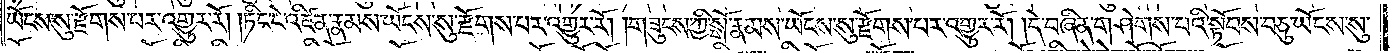ཡོངས་སུ་རྫོགས་པར་འགྱུར་རོ། །ཏིང་ངེ་འཛིན་རྣམས་ཡོངས་སུ་རྫོགས་པར་འགྱུར་རོ། །གཟུངས་ཀྱི་སྒོ་རྣམས་ཡོངས་སུ་རྫོགས་པར་འགྱུར་རོ། །དེ་བཞིན་གཤེགས་པའི་སྟོབས་བཅུ་ཡོངས་སུ་
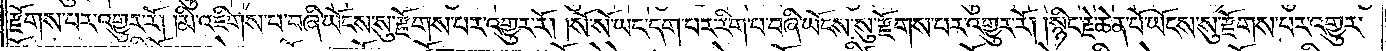རྫོགས་པར་འགྱུར་རོ། །མི་འཇིགས་པ་བཞི་ཡོངས་སུ་རྫོགས་པར་འགྱུར་རོ། །སོ་སོ་ཡང་དག་པར་རིག་པ་བཞི་ཡོངས་སུ་རྫོགས་པར་འགྱུར་རོ། །སྙིང་རྗེ་ཆེན་པོ་ཡོངས་སུ་རྫོགས་པར་འགྱུར་
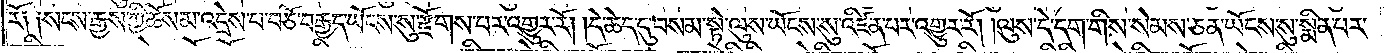རོ། །སངས་རྒྱས་ཀྱི་ཆོས་མ་འདྲེས་པ་བཅོ་བརྒྱད་ཡོངས་སུ་རྫོགས་པར་འགྱུར་རོ། །དེ་ཆེད་དུ་བསམས་ཏེ་ལུས་ཡོངས་སུ་འཛིན་པར་འགྱུར་རོ། །ལུས་དེ་དག་གིས་སེམས་ཅན་ཡོངས་སུ་སྨིན་པར་
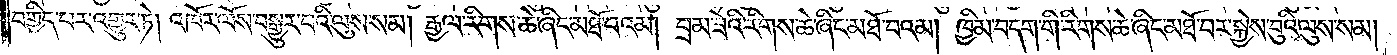བགྱིད་པར་འགྱུར་ཏེ། འཁོར་ལོས་སྒྱུར་བའི་ལུས་སམ། རྒྱལ་རིགས་ཆེ་ཞིང་མཐོ་བའམ། བྲམ་ཟེའི་རིགས་ཆེ་ཞིང་མཐོ་བའམ། ཁྱིམ་བདག་གི་རིགས་ཆེ་ཞིང་མཐོ་བར་སྐྱེས་བུའི་ལུས་སམ།
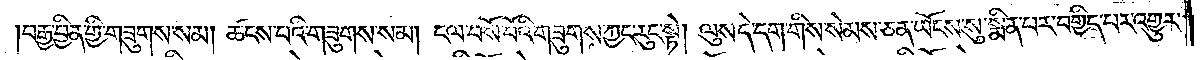བརྒྱ་བྱིན་གྱི་གཟུགས་སམ། ཚངས་པའི་གཟུགས་སམ། ངལ་བསོ་པོའི་གཟུགས་ཀྱང་རུང་སྟེ། ལུས་དེ་དག་གིས་སེམས་ཅན་ཡོངས་སུ་སྨིན་པར་བགྱིད་པར་འགྱུར་
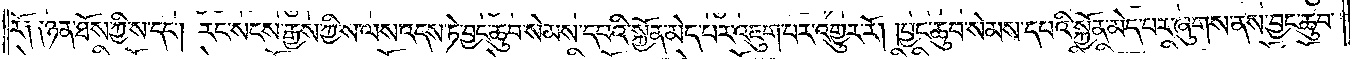རོ༑ ༑ཉན་ཐོས་ཀྱི་ས་དང༌། རང་སངས་རྒྱས་ཀྱི་ས་ལས་འདས་ཏེ་བྱང་ཆུབ་སེམས་དཔའི་སྐྱོན་མེད་པར་འཇུག་པར་འགྱུར་རོ། །བྱང་ཆུབ་སེམས་དཔའི་སྐྱོན་མེད་པར་ཞུགས་ནས་བྱང་ཆུབ་
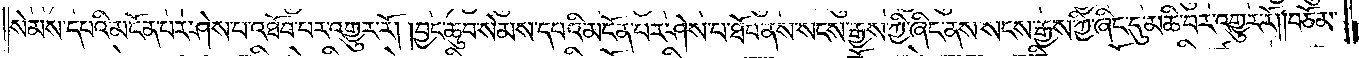སེམས་དཔའི་མངོན་པར་ཤེས་པ་འཐོབ་པར་འགྱུར་རོ། །བྱང་ཆུབ་སེམས་དཔའི་མངོན་པར་ཤེས་པ་ཐོབ་ནས་སངས་རྒྱས་ཀྱི་ཞིང་ནས་སངས་རྒྱས་ཀྱི་ཞིང་དུ་མཆི་བར་འགྱུར་རོ། །བཅོམ་
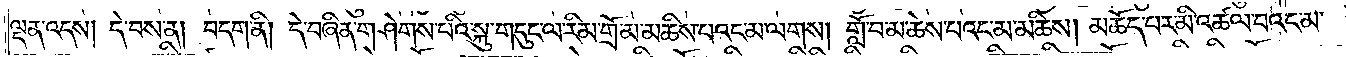ལྡན་འདས། དེ་བས་ན། བདག་ནི། དེ་བཞིན་གཤེགས་པའི་སྐུ་གདུང་ལ་རིམ་གྲོ་མ་མཆིས་པའང་མ་ལགས། གློ་བ་མ་ཆེས་པའང་མ་མཆིས། མཆོད་པར་མི་འཚལ་བའང་མ་
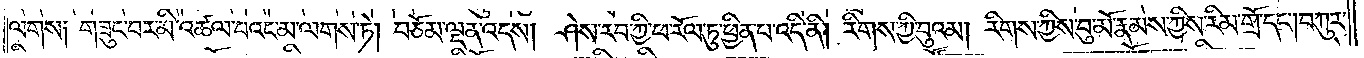ལགས༑ གཟུང་བར་མི་འཚལ་བའང་མ་ལགས་ཏེ། བཅོམ་ལྡན་འདས། ཤེས་རབ་ཀྱི་ཕ་རོལ་ཏུ་ཕྱིན་པ་འདི་ནི། རིགས་ཀྱི་བུའམ། རིགས་ཀྱི་བུ་མོ་རྣམས་ཀྱིས་རིམ་གྲོ་དང༌། བཀུར་
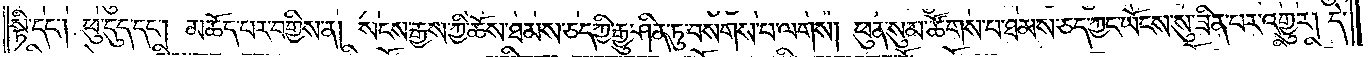སྟི་དང༌། ཕུ་དུད་དང༌། མཆོད་པར་བགྱིས་ན། སངས་རྒྱས་ཀྱི་ཆོས་ཐམས་ཅད་ཀྱི་རྒྱུ་ཤིན་ཏུ་བསགས་པ་ལགས། ཕུན་སུམ་ཚོགས་པ་ཐམས་ཅད་ཀྱང་ཡོངས་སུ་ཟིན་པར་འགྱུར། དེ་
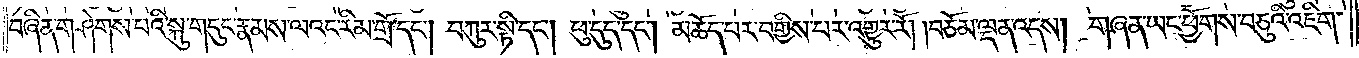བཞིན་གཤེགས་པའི་སྐུ་གདུང་རྣམས་ལའང༌། རིམ་གྲོ་དང༌། བཀུར་སྟི་དང༌། ཕུ་དུད་དང༌། མཆོད་པར་བགྱིས་པར་འགྱུར་རོ། །བཅོམ་ལྡན་འདས། གཞན་ཡང་ཕྱོགས་བཅུའི་འཇིག་
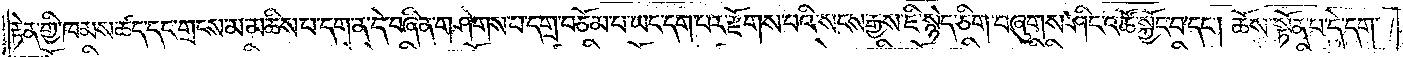རྟེན་གྱི་ཁམས་ཚད་དང་གྲངས་མ་མཆིས་པ་དག་ན་དེ་བཞིན་གཤེགས་པ་དགྲ་བཅོམ་པ་ཡང་དག་པར་རྫོགས་པའི་སངས་རྒྱས་ཇི་སྙེད་ཅིག་བཞུགས་ཤིང་འཚོ་སྐྱོང་བ་དང༌། ཆོས་སྟོན་པ་དེ་དག་
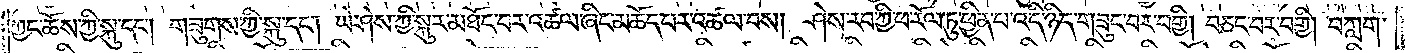ཀྱང་ཆོས་ཀྱི་སྐུ་དང༌། གཟུགས་ཀྱི་སྐུ་དང༌། ཡེ་ཤེས་ཀྱི་སྐུར་མཐོང་བར་འཚལ་ཞིང་མཆོད་པར་འཚལ་བས། ཤེས་རབ་ཀྱི་ཕ་རོལ་ཏུ་ཕྱིན་པ་འདི་ཉིད་གཟུང་བར་བགྱི། བཅང་བར་བགྱི། བཀླག་
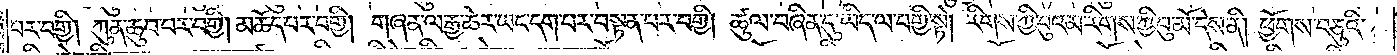པར་བགྱི། ཀུན་ཆུབ་པར་བགྱི། མཆོད་པར་བགྱི། གཞན་ལ་རྒྱ་ཆེར་ཡང་དག་པར་བསྟན་པར་བགྱི། ཚུལ་བཞིན་དུ་ཡིད་ལ་བགྱི་སྟེ། རིགས་ཀྱི་བུའམ་རིགས་ཀྱི་བུ་མོ་དེས་ནི། ཕྱོགས་བཅུའི་
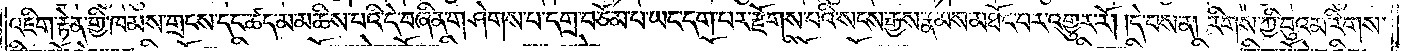འཇིག་རྟེན་གྱི་ཁམས་གྲངས་དང་ཚད་མ་མཆིས་པའི་དེ་བཞིན་གཤེགས་པ་དགྲ་བཅོམ་པ་ཡང་དག་པར་རྫོགས་པའི་སངས་རྒྱས་རྣམས་མཐོང་བར་འགྱུར་རོ། །དེ་བས་ན། རིགས་ཀྱི་བུའམ་རིགས་
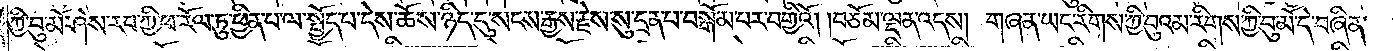ཀྱི་བུ་མོ་ཤེས་རབ་ཀྱི་ཕ་རོལ་ཏུ་ཕྱིན་པ་ལ་སྤྱོད་པ་དེས་ཆོས་ཉིད་དུ་སངས་རྒྱས་རྗེས་སུ་དྲན་པ་བསྒོམ་པར་བགྱིའོ། །བཅོམ་ལྡན་འདས། གཞན་ཡང་རིགས་ཀྱི་བུའམ་རིགས་ཀྱི་བུ་མོ་དེ་བཞིན་
